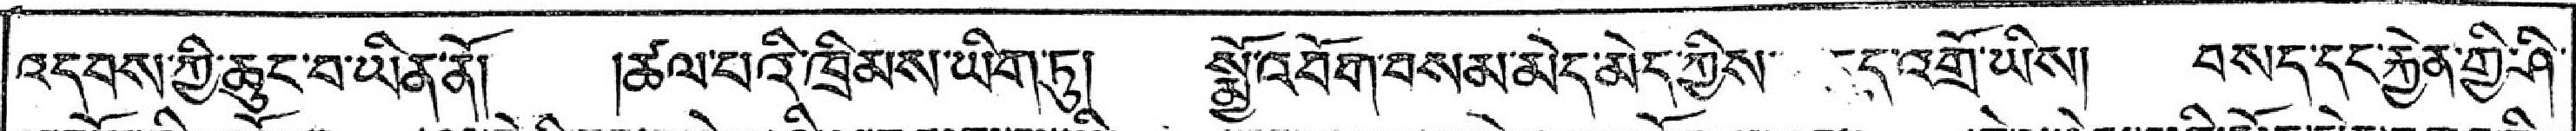འདབས་ཀྱི་ཆུང་བ་ཡིན་ནོ། །ཚལ་པའི་ཁྲིམས་ཡིག་ཏུ། སྨྱོ་འབོག་བསམ་མེད་མེད་ཀྱིས་དུད་འགྲོ་ཡིས། བསད་དུང་རྐྱེན་གྱི་ཤི་
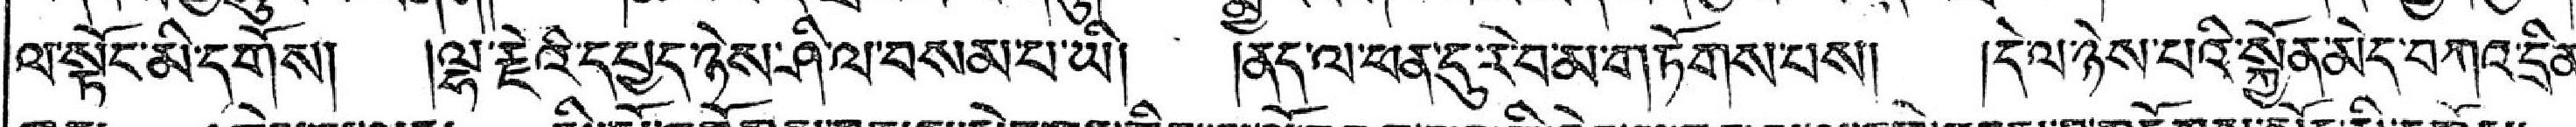ལ་སྟོང་མི་དགོས། །ལྷ་རྗེའི་དཔྱད་ཉེས་ཤི་ལ་བསམ་པ་ཡི། །ནད་ལ་ཕན་དུ་རེབ་མ་གཏོགས་པས། །དེ་ལ་ཉེས་པའི་སྐྱོན་མེད་བཀའ་དྲིན་
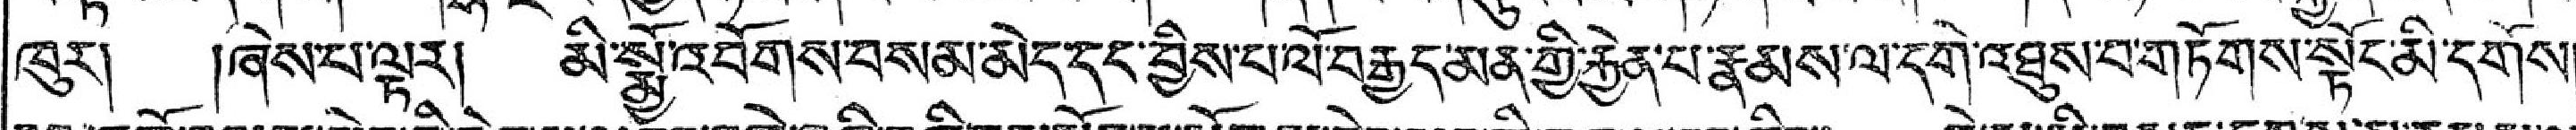ཁུར། །ཞེས་པ་ལྟར། མི་སྨྱོ་འབོགས་བསམ་མེད་དང་བྱིས་པ་ལོ་བརྒྱད་མན་གྱི་རྐྱེན་པ་རྣམས་ལ་དགེ་འཐུས་བ་གཏོགས་སྟོང་མི་དགོས།
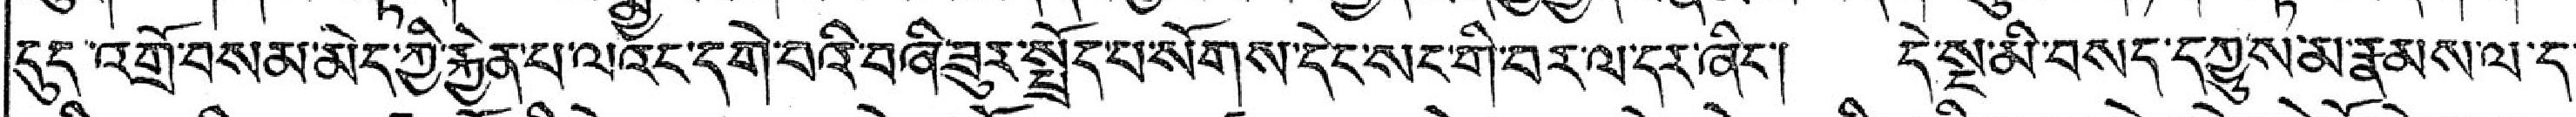དུད་འགྲོ་བསམ་མེད་ཀྱི་རྐྱེན་པ་ལའང་དགེ་བའི་བཞི་ཟུར་སྤྲོད་པ་སོགས་དེང་སང་གི་བར་ལ་དར་ཞིང་། དེ་སྔ་མི་བསད་དཀྱུས་མ་རྣམས་ལ་ད་
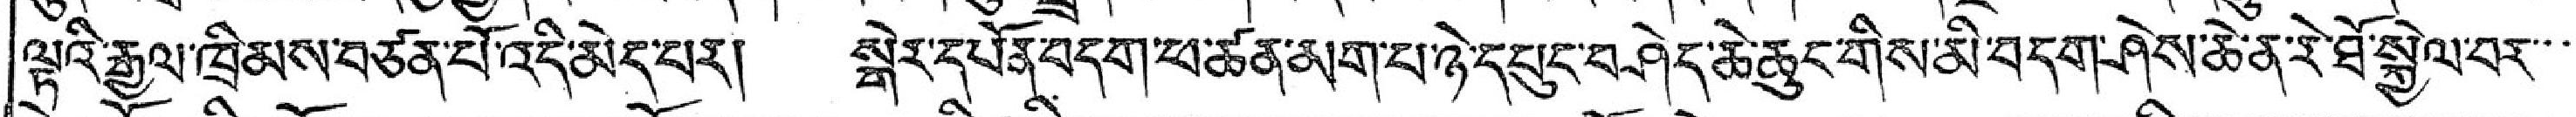ལྟའི་རྒྱལ་ཁྲིམས་བཙན་པོ་འདི་མེད་པར། སྒེར་དཔོན་བདག་ཕ་ཚན་མག་པ་ཉེ་དཔུང་བཤེད་ཆེ་ཆུང་གིས་མི་བདག་ཤེས་ཆེ་ན་རེ་ཐོ་སྐྱེལ་བར་་་་
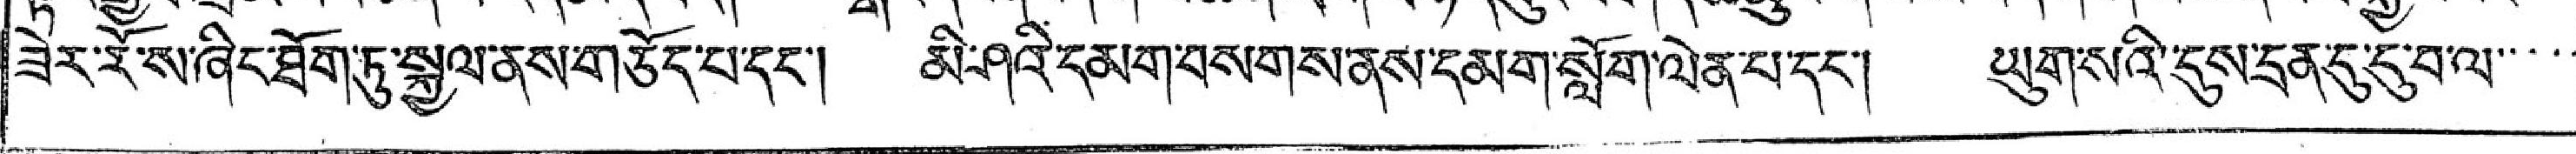ཟེར་རོ་ས་ཞིང་ཐོག་ཏུ་སྐྱལ་ནས་གཅོད་པ་དང་། མི་ཤའི་དམག་བསགས་ནས་དམག་སློག་ལེན་པ་དང་། ཡུག་སའི་དུས་དྲན་དུ་དུ་བ་ལ་་་་་
